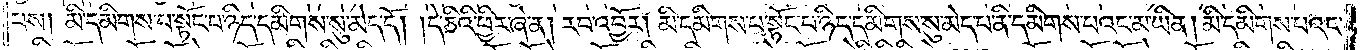པས། མི་དམིགས་པ་སྟོང་པ་ཉིད་དམིགས་སུ་མེད་དོ། །དེ་ཅིའི་ཕྱིར་ཞེ་ན། རབ་འབྱོར། མི་དམིགས་པ་སྟོང་པ་ཉིད་དམིགས་སུ་མེད་པ་ནི་དམིགས་པའང་མ་ཡིན། མི་དམིགས་པའང་
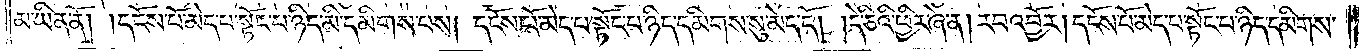མ་ཡིན་ནོ། །དངོས་པོ་མེད་པ་སྟོང་པ་ཉིད་མི་དམིགས་པས། དངོས་པོ་མེད་པ་སྟོང་པ་ཉིད་དམིགས་སུ་མེད་དོ། །དེ་ཅིའི་ཕྱིར་ཞེ་ན། རབ་འབྱོར། དངོས་པོ་མེད་པ་སྟོང་པ་ཉིད་དམིགས་
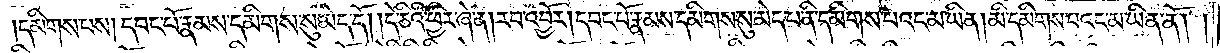དམིགས་པས། དབང་པོ་རྣམས་དམིགས་སུ་མེད་དོ། །དེ་ཅིའི་ཕྱིར་ཞེ་ན། རབ་འབྱོར། དབང་པོ་རྣམས་དམིགས་སུ་མེད་པ་ནི་དམིགས་པའང་མ་ཡིན། མི་དམིགས་པའང་མ་ཡིན་ནོ། །
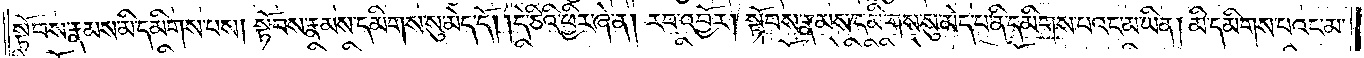སྟོབས་རྣམས་མི་དམིགས་པས། སྟོབས་རྣམས་དམིགས་སུ་མེད་དོ། །དེ་ཅིའི་ཕྱིར་ཞེ་ན། རབ་འབྱོར། སྟོབས་རྣམས་དམིགས་སུ་མེད་པ་ནི་དམིགས་པའང་མ་ཡིན། མི་དམིགས་པའང་མ་
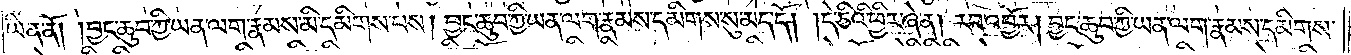ཡིན་ནོ། །བྱང་ཆུབ་ཀྱི་ཡན་ལག་རྣམས་མི་དམིགས་པས། བྱང་ཆུབ་ཀྱི་ཡན་ལག་རྣམས་དམིགས་སུ་མེད་དོ། །དེ་ཅིའི་ཕྱིར་ཞེ་ན། རབ་འབྱོར། བྱང་ཆུབ་ཀྱི་ཡན་ལག་རྣམས་དམིགས་
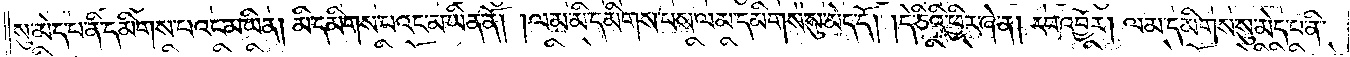སུ་མེད་པ་ནི་དམིགས་པའང་མ་ཡིན། མི་དམིགས་པའང་མ་ཡིན་ནོ། །ལམ་མི་དམིགས་པས་ལམ་དམིགས་སུ་མེད་དོ། །དེ་ཅིའི་ཕྱིར་ཞེ་ན། རབ་འབྱོར། ལམ་དམིགས་སུ་མེད་པ་ནི་
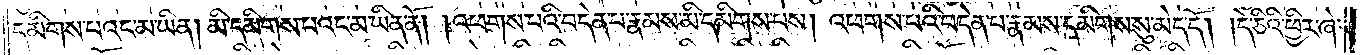དམིགས་པའང་མ་ཡིན། མི་དམིགས་པའང་མ་ཡིན་ནོ། །འཕགས་པའི་བདེན་པ་རྣམས་མི་དམིགས་པས། འཕགས་པའི་བདེན་པ་རྣམས་དམིགས་སུ་མེད་དོ། །དེ་ཅིའི་ཕྱིར་ཞེ་
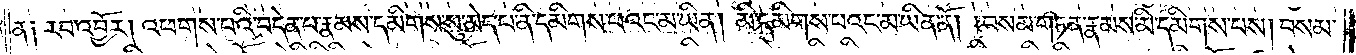ན༑ རབ་འབྱོར། འཕགས་པའི་བདེན་པ་རྣམས་དམིགས་སུ་མེད་པ་ནི་དམིགས་པའང་མ་ཡིན། མི་དམིགས་པའང་མ་ཡིན་ནོ། །བསམ་གཏན་རྣམས་མི་དམིགས་པས། བསམ་
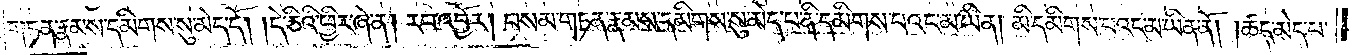གཏན་རྣམས་དམིགས་སུ་མེད་དོ། །དེ་ཅིའི་ཕྱིར་ཞེ་ན། རབ་འབྱོར། བསམ་གཏན་རྣམས་དམིགས་སུ་མེད་པ་ནི་དམིགས་པའང་མ་ཡིན། མི་དམིགས་པའང་མ་ཡིན་ནོ། །ཚད་མེད་པ་
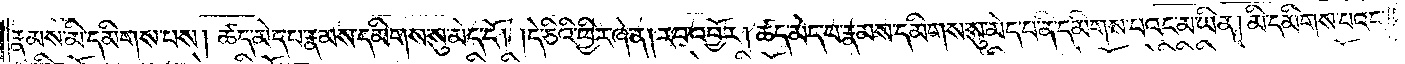རྣམས་མི་དམིགས་པས། ཚད་མེད་པ་རྣམས་དམིགས་སུ་མེད་དོ། །དེ་ཅིའི་ཕྱིར་ཞེ་ན། རབ་འབྱོར། ཚད་མེད་པ་རྣམས་དམིགས་སུ་མེད་པ་ནི་དམིགས་པའང་མ་ཡིན། མི་དམིགས་པའང་
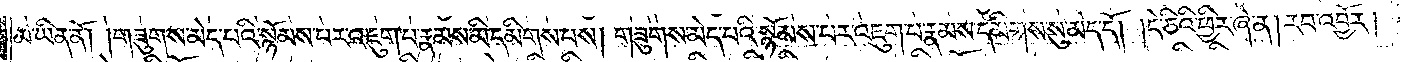མ་ཡིན་ནོ། །གཟུགས་མེད་པའི་སྙོམས་པར་འཇུག་པ་རྣམས་མི་དམིགས་པས། གཟུགས་མེད་པའི་སྙོམས་པར་འཇུག་པ་རྣམས་དམིགས་སུ་མེད་དོ། །དེ་ཅིའི་ཕྱིར་ཞེ་ན། རབ་འབྱོར།
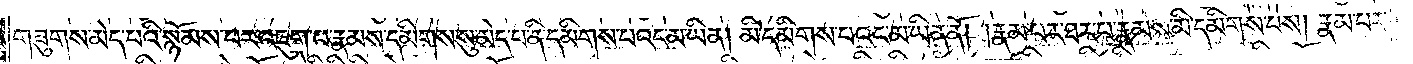གཟུགས་མེད་པའི་སྙོམས་པར་འཇུག་པ་རྣམས་དམིགས་སུ་མེད་པ་ནི་དམིགས་པའང་མ་ཡིན། མི་དམིགས་པའང་མ་ཡིན་ནོ། །རྣམ་པར་ཐར་པ་རྣམས་མི་དམིགས་པས། རྣམ་པར་
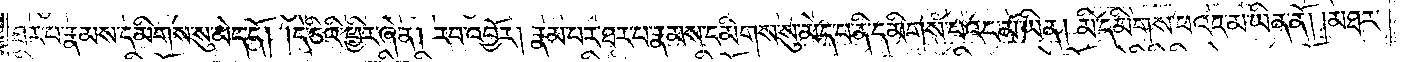ཐར་པ་རྣམས་དམིགས་སུ་མེད་དོ། །དེ་ཅིའི་ཕྱིར་ཞེ་ན། རབ་འབྱོར། རྣམ་པར་ཐར་པ་རྣམས་དམིགས་སུ་མེད་པ་ནི་དམིགས་པའང་མ་ཡིན། མི་དམིགས་པའང་མ་ཡིན་ནོ། །མཐར་
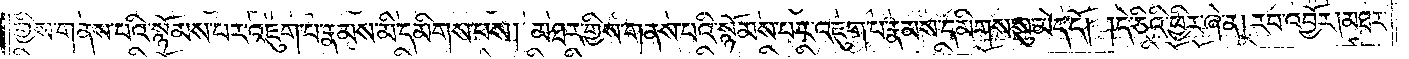གྱིས་གནས་པའི་སྙོམས་པར་འཇུག་པ་རྣམས་མི་དམིགས་པས། མཐར་གྱིས་གནས་པའི་སྙོམས་པར་འཇུག་པ་རྣམས་དམིགས་སུ་མེད་དོ། །དེ་ཅིའི་ཕྱིར་ཞེ་ན། རབ་འབྱོར། མཐར་
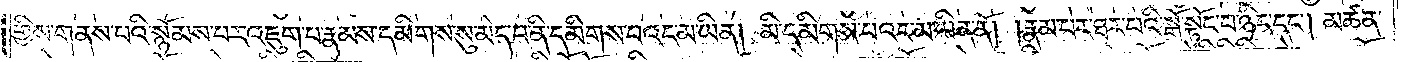གྱིས་གནས་པའི་སྙོམས་པར་འཇུག་པ་རྣམས་དམིགས་སུ་མེད་པ་ནི་དམིགས་པའང་མ་ཡིན། མི་དམིགས་པའང་མ་ཡིན་ནོ། །རྣམ་པར་ཐར་པའི་སྒོ་སྟོང་པ་ཉིད་དང༌། མཚན་
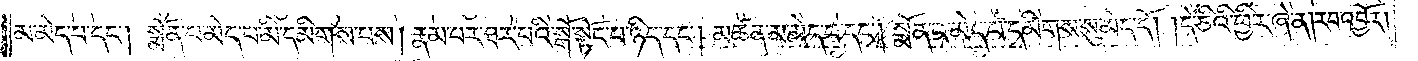མ་མེད་པ་དང༌། སྨོན་པ་མེད་པ་མི་དམིགས་པས། རྣམ་པར་ཐར་པའི་སྒོ་སྟོང་པ་ཉིད་དང༌། མཚན་མ་མེད་པ་དང༌། སྨོན་པ་མེད་པ་དམིགས་སུ་མེད་དོ། །དེ་ཅིའི་ཕྱིར་ཞེ་ན། རབ་འབྱོར།
